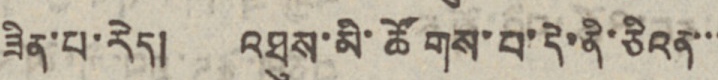ཟིན་པ་རེད། འཐུས་མི་ཚོགས་པ་དེ་ནི་ཅིའན་་་
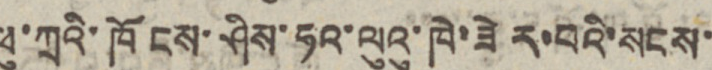ཕུ་ཀྲའི་ཁོངས་ཤིས་ཧའ་ལུའུ་ཁེ་ཟེར་བའི་སངས་
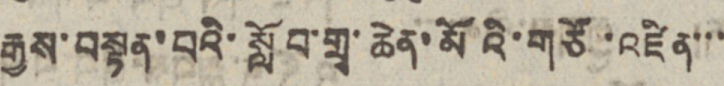རྒྱས་བསྟན་པའི་སློབ་གྲྭ་ཆེན་མོའི་གཙོ་འཛིན་་་
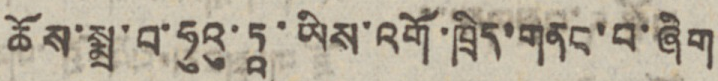ཆོས་སྨྲ་བ་ཧུའུ་ཏཱ་ཡིས་འགོ་ཁྲིད་གནང་བ་ཞིག་
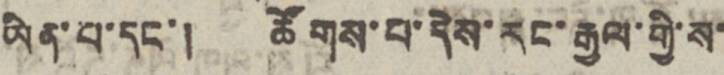ཡིན་པ་དང་། ཚོགས་པ་དེས་རང་རྒྱལ་གྱི་ས་
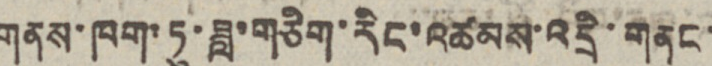གནས་ཁག་ཏུ་ཟླ་གཅིག་རིང་འཚམས་འདྲི་གནང་
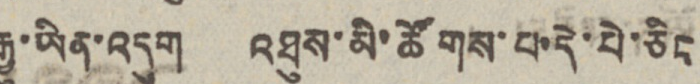རྒྱུ་ཡིན་འདུག འཐུས་མི་ཚོགས་པ་དེ་པེ་ཅིང་
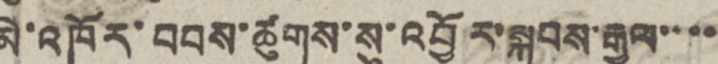མེ་འཁོར་བབས་ཚུགས་སུ་འབྱོར་སྐབས་རྒྱལ་་་་
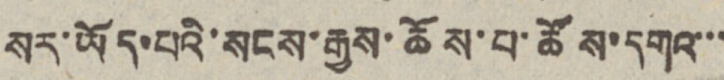སར་ཡོད་པའི་སངས་རྒྱས་ཆོས་པ་ཚོས་དགའ་་་
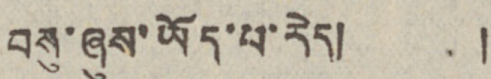བསུ་ཞུས་ཡོད་པ་རེད། །
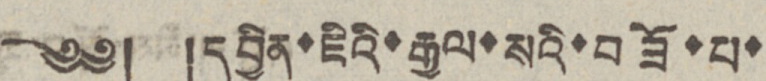༄༅། །དབྱིན་ཇིའི་རྒྱལ་སའི་བཟོ་པ་
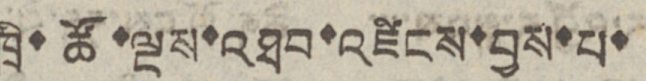ཁྲི་ཚོ་ལྔས་འཐབ་འཛིངས་བྱས་པ་
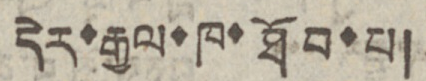དེར་རྒྱལ་ཁ་ཐོབ་པ།
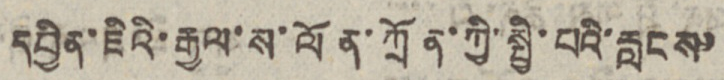དབྱིན་ཇིའི་རྒྱལ་ས་ལོན་ཀྲོན་ཀྱི་སྤྱི་པའི་རླངས་
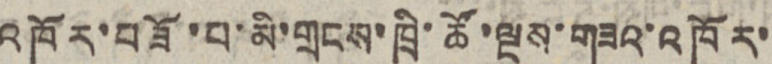འཁོར་བཟོ་པ་མི་གྲངས་ཁྲི་ཚོ་ལྔས་གཟའ་འཁོར་
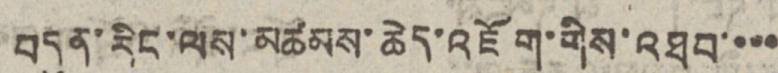བདུན་རིང་ལས་མཚམས་ཆེད་འཇོག་གིས་འཐབ་་་་
